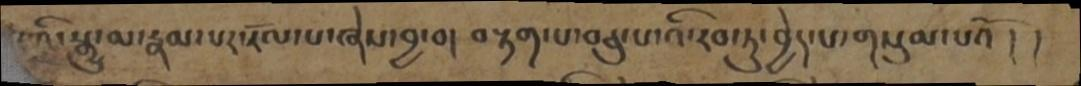ར་འི་སྒྱུ་མ་རྣམ་པར་རོལ་པ་ཞེས་བྱ་བ། བརྟག་པ་བཅུ་པ་འི་རབ་ཏུ་བྱེད་པ་གསུམ་པའོ། །
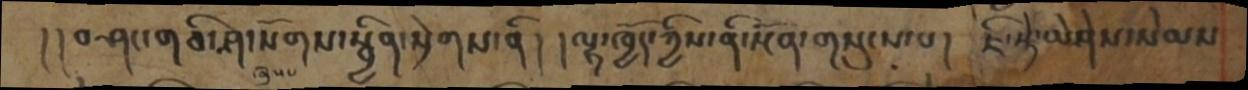། །བཤང་གཅི་ཤ་སོགས་སྦྱིན་སྲེགས་ནི། །ལྷ་ཁྱོད་ཀྱིས་ནི་སྔོན་གསུངས་པ།  ཇི་སྟེ་ཡེཤེས་སེམས
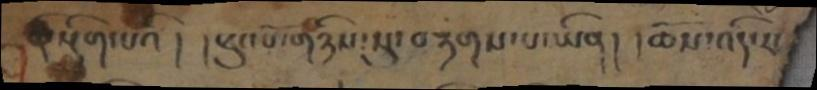ནི་སྡིག་པའི། །ཕུང་པོ་གཉིས་སུ་བརྟགས་པ་ཡིན། །ཆོས་འདི་རང་
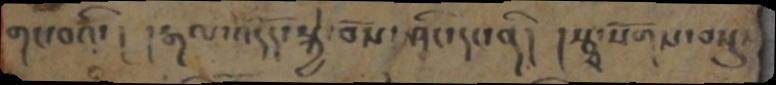གང་བའི་། །རྒལ་འདོད་སྐྱེ་བོས་ཤིང་དང་ནི། །རྩྭ་སོགས་བསྡུ་
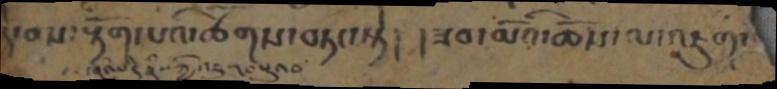དེ་བས་རྟོག་པའི་ཚོགས་བཏང་སྟེ། །ཟབ་མོའི་ཆོས་ལ་འཇུག་
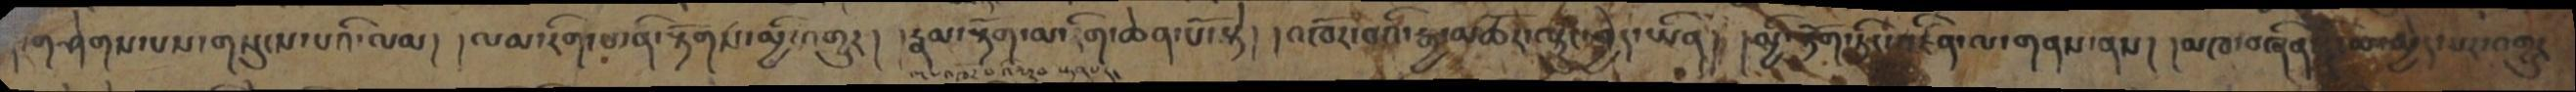།གཤེགས་པས་གསུངས་པའི་ལམ། །ལམ་རིག་པ་ནི་རྟོགས་མྱི་འགྱུར། །རྣམ་རྟོག་མ་རིག་ཆེན་པོ་སྟེ། །འཁོར་བའི་རྒྱ་མཚོར་ལྟུང་བྱེད་ཡིན། །མྱི་རྟོག་ཏིང་འཛིན་ལ་གནས་ནས། །མཁ་བཞིན་དེ་ལ་མྱེད་པར་འགྱུར
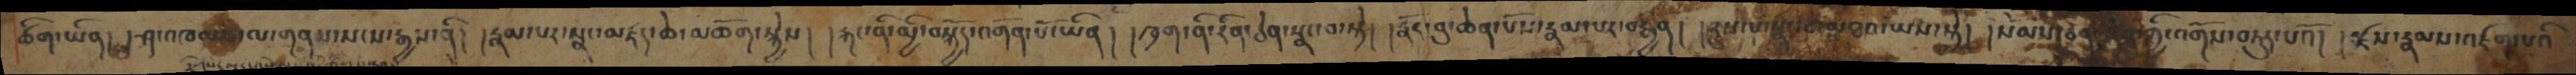ཚིག་ཡིན། །ཤ་འཁམས་ལ་གནས་སངས་རྒྱས་ནི། །རྣམ་པར་སྣང་མཛད་ཆེ་མཆོག་སྐྱེས། །རྐང་ནི་མྱི་བསྐྱོད་འགོན་པོ་ཡིན། །ཁྲག་ནི་རིན་ཅེན་སྣང་བ་སྟེ། །རྣོར་བུ་ཆེན་པོ་རྣམ་པར་བརྒྱན། །རུས་པ་སྣང་བ་མཐའ་ཡས་སྟེ། །སེམས་ཅན་དོན་ཀྱི་འགོས་བཏུད་པའོ། །རྫས་རྣམས་འཛག་པའི་
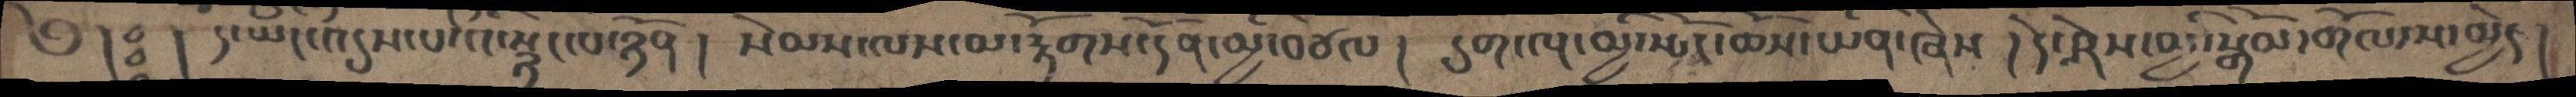༅། ཿ  །དེ་ཡང་འདུས་པ་འི་སྙིང་པ་ཉོན། སེམས་ལས་མ་རྟོགས་དོན་མྱི་བཙལ། དུག་ལྔ་མྱི་སྤོང་ཆོས་ཡིན་ཞེས། དེ་ཤེས་མྱི་སྒོམ་གོལ་ས་མྱེད།
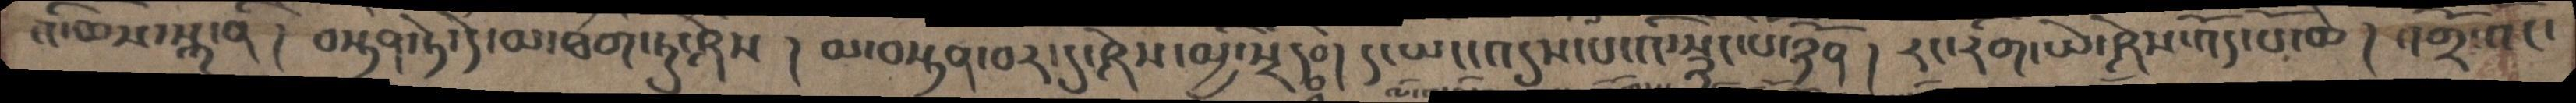འི་ཆས་སྐ་ནི། བསྟན་ཏེ་དེ་མ་ཐག་ཏུ་ཤེས། མ་བསྟན་བར་དུ་ཤེས་མྱི་སྲིད ཿ  ། ད་ཡང་འདུས་པ་འི་སྙིང་པོ་ཉོན། རང་རིག་ཡེ་ཤེས་འོད་པོ་ཆེ། འགྲོ་འོང་
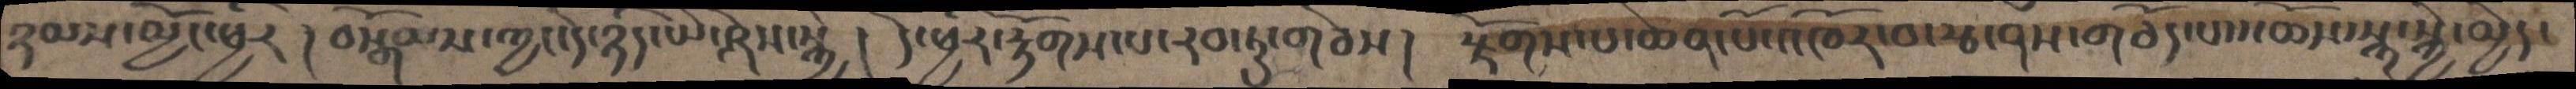ཉམས་མྱོང་ཕྱིར ། བསྒོམས་ཀྱང་དེ་ཉིད་ཡེ་ཤེས་སྐྱེ ། དེ་ཕྱིར་རྟོགས་པ་རབ་ཏུ་གཅེས།  རྫོགས་པ་ཆེན་པོ་འཁོར་བ་རྩ་ནས་གཅོད་པས་ཆོས་སྐུ་སྐྱེ་མྱེད་
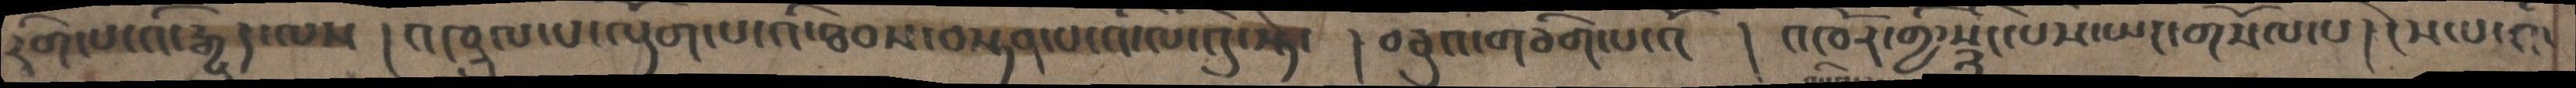རིག་པ་འི་རྒྱུད་ལས  ། འཁྲུལ་པ་ལྡོག་པ་འི་ཐབས་བསྟན་པ་འི་ལེ་འུ་སྟེ་ ། བཅུའ་གཅིག་པ་འོ ། འཁོར་གྱི་སྙིང་པོས་ཡང་གསོལ་པ ། ངེས་པ་འི་
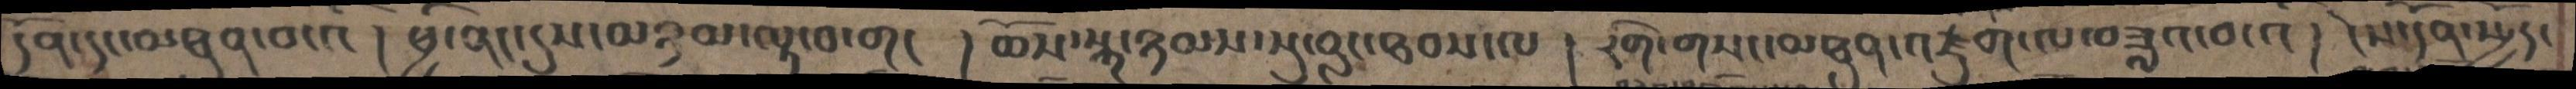དོན་དུ་མཐུན་བ་འི །ཕྱི་ནང་དུས་མཉམ་ལྟ་བ་གང ། ཆོས་སྐུ་ཉམས་སུ་བླང་ཐབས་ལ ། རིག་གསང་མཐུན་འཛུག་ལ་བཟླ་བ་འི ། ངེས་དོན་སྤྱོད་
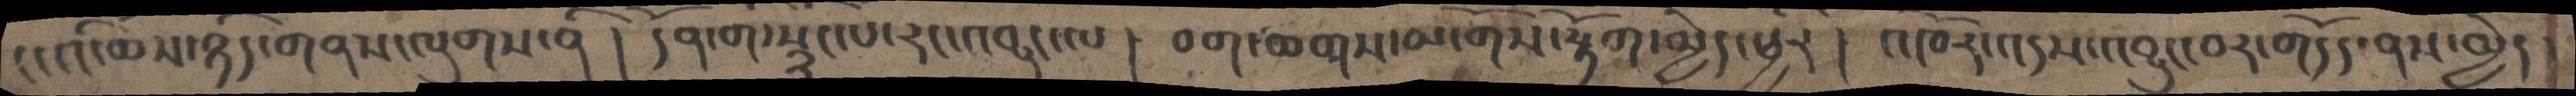ང་འི་ཆོས་ཉིད་གནས་ལུགས་ནི ། དོན་ག་སྙིང་པ་རང་འབྱུང་ལ ། བག་ཆགས་མ་གོས་རྟོག་མྱེད་ཕྱེར ། འཁོར་འདས་འབྱུང་བར་གདོད་ནས་མྱེད །
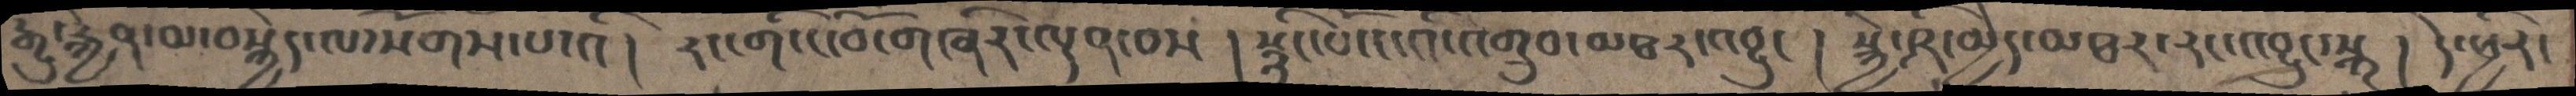རྒྱུ་རྐྱེན་མ་བསྐྱེད་ལ་སོགས་པ་འི ། རང་གི་ངོ་བོ་གཞིར་ལྡན་བས ། སྙིང་པོ་ང་འི་འགྲུབ་མཐར་འབྱུང་ ། སྐྱེ་ཤི་མྱེད་མཐར་རང་འབྱུང་སྐུ ། དེ་ཕྱིར་
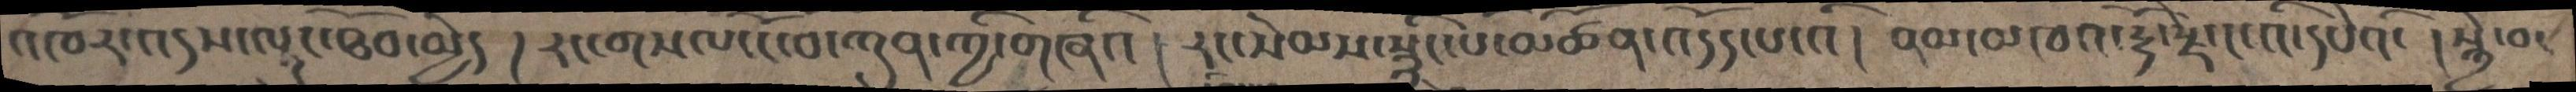འཁོར་འདས་ལྟུང་ཐོབ་མྱེད །རང་གསལ་ངོ་བ་ཀུན་ཀྱི་གཞིའ ། རང་སེམས་སྙིང་པོ་མཚོན་འདོད་པ་འི ། ནམ་མཁའ་རྡོ་རྗེ་ང་འི་དཔེའ་ །སྐྱེ་བ་
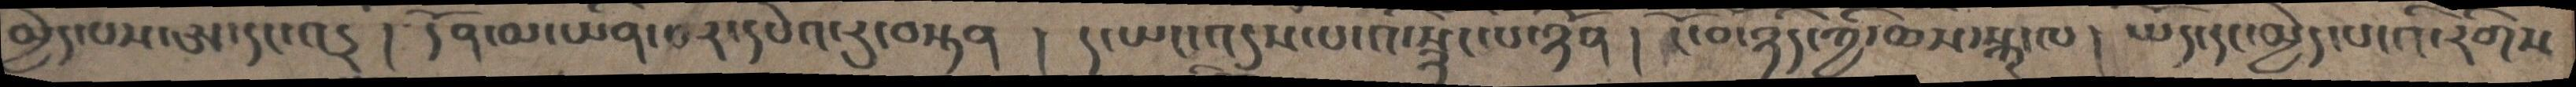མྱེད་པས་ཨ་དང་འདྲ ། དོན་མ་ཡིན་པར་དཔེའ་རུ་བསྟན །  ད་ཡང་འདུས་པ་འི་སྙིང་པོ་ཉོན ། ངོ་བོ་ཉིད་ཀྱི་ཆོས་སྐུ་ལ ། ཡོད་དང་མྱེད་པ་འི་རིགས་
